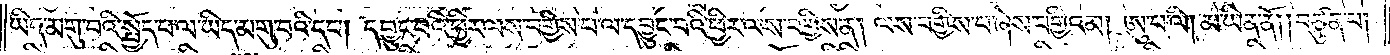ཡིད་མགུ་བའི་སྤྱོད་པ་ལ་ཡིད་མགུ་བའི་དང༌། དབྱུང་བའི་ཕྱིར་ལས་བགྱིས་པ་ལ་དབྱུང་བའི་ཕྱིར་ལས་བགྱིས་ན། ལས་བགྱིས་པ་ཞེས་བགྱིའམ། ཨུ་པ་ལི། མ་ཡིན་ནོ། །བཙུན་པ།
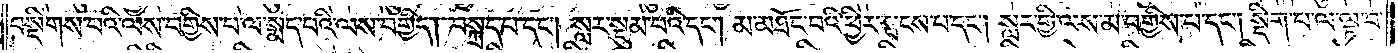བསྡིགས་པའི་ལས་བགྱིས་པ་ལ་སྨད་པའི་ལས་བགྱིད། བསྐྲད་པ་དང༌། སླར་སྡུམ་པའི་དང༌། མ་མཐོང་བའི་ཕྱིར་སྤངས་པ་དང༌། སླར་གྱི་ལས་མ་བགྱིས་པ་དང༌། སྡིག་པ་ལ་ལྟ་བ་
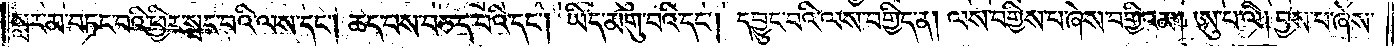སླར་མ་བཏང་བའི་ཕྱིར་སྤང་བའི་ལས་དང༌། ཆད་པས་བཅད་པའི་དང༌། ཡིད་མགུ་བའི་དང༌། དབྱུང་བའི་ལས་བགྱིད་ན། ལས་བགྱིས་པ་ཞེས་བགྱིའམ། ཨུ་པ་ལི། བྱས་པ་ཞེས་
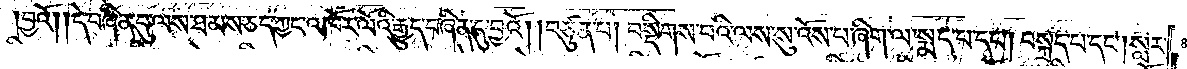བྱའོ། །དེ་བཞིན་དུ་ལས་ཐམས་ཅད་ཀྱང་འཁོར་ལོའི་རྒྱུད་བཞིན་དུ་བྱའོ། །བཙུན་པ། བསྡིགས་པའི་ལས་སུ་འོས་པ་ཞིག་ལ་སྨད་པ་དང༌། བསྐྲད་པ་དང༌། སླར་
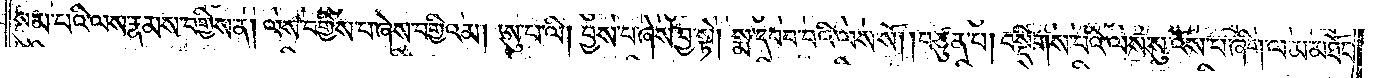སྡུམ་པའི་ལས་རྣམས་བགྱིས་ན། ལས་བགྱིས་པ་ཞེས་བགྱིའམ། ཨུ་པ་ལི། བྱས་པ་ཞེས་བྱ་སྟེ། སྨ་དབབ་བའི་ལས་སོ། །བཙུན་པ། བསྡིགས་པའི་ལས་སུ་འོས་པ་ཞིག་ལ་མ་མཐོང་
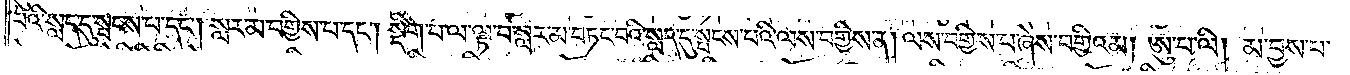པའི་སླད་དུ་སྤངས་པ་དང༌། སླར་མ་བགྱིས་པ་དང༌། སྡིག་པ་ལ་ལྟ་བ་སླར་མ་བཏང་བའི་སླད་དུ་སྤངས་པའི་ལས་བགྱིས་ན། ལས་བགྱིས་པ་ཞེས་བགྱིའམ། ཨུ་པ་ལི། མ་བྱས་པ་
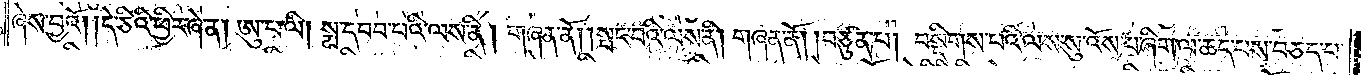ཞེས་བྱའོ། །དེ་ཅིའི་ཕྱིར་ཞེ་ན། ཨུ་པ་ལི། སྨ་དབབ་པའི་ལས་ནི། གཞན་ནོ། །སྤང་བའི་ལས་ནི། གཞན་ནོ། །བཙུན་པ། བསྡིགས་པའི་ལས་སུ་འོས་པ་ཞིག་ལ་ཆད་པས་བཅད་པ་
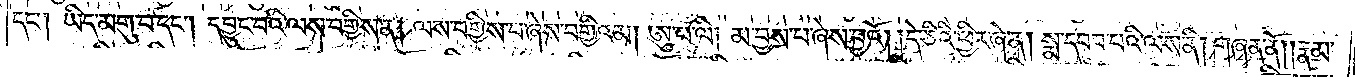དང༌། ཡིད་མགུ་བ་དང༌། དབྱུང་བའི་ལས་བགྱིས་ན། ལས་བགྱིས་པ་ཞེས་བགྱིའམ། ཨུ་པ་ལི། མ་བྱས་པ་ཞེས་བྱའོ། །དེ་ཅིའི་ཕྱིར་ཞེ་ན། སྨ་དབབ་པའི་ལས་ནི། གཞན་ནོ། །རྣམ་
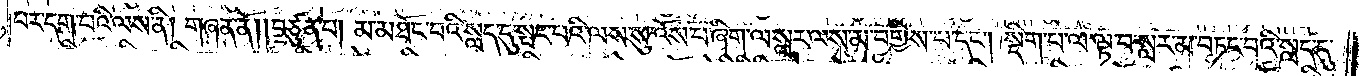པར་དག་པའི་ལས་ནི། གཞན་ནོ། །བཙུན་པ། མ་མཐོང་བའི་སླད་དུ་སྤང་བའི་ལས་སུ་འོས་པ་ཞིག་ལ་སླར་ལས་མ་བགྱིས་པ་དང༌། སྡིག་པ་ལ་ལྟ་བ་སླར་མ་བཏང་བའི་སླད་དུ་
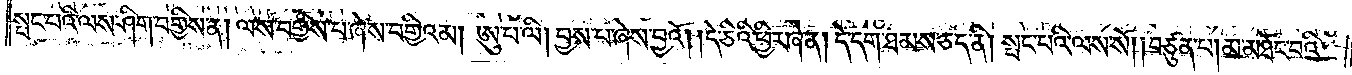སྤང་པའི་ལས་ཤིག་བགྱིས་ན། ལས་བགྱིས་པ་ཞེས་བགྱིའམ། ཨུ་པ་ལི། བྱས་པ་ཞེས་བྱའོ། །དེ་ཅིའི་ཕྱིར་ཞེ་ན། དེ་དག་ཐམས་ཅད་ནི། སྤང་པའི་ལས་སོ། །བཙུན་པ། མ་མཐོང་བའི་
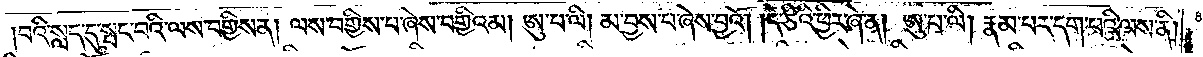བའི་སླད་དུ་སྤང་བའི་ལས་བགྱིས་ན། ལས་བགྱིས་པ་ཞེས་བགྱིའམ། ཨུ་པ་ལི། མ་བྱས་པ་ཞེས་བྱའོ། །དེ་ཅིའི་ཕྱིར་ཞེ་ན། ཨུ་པ་ལི། རྣམ་པར་དག་པའི་ལས་ནི།
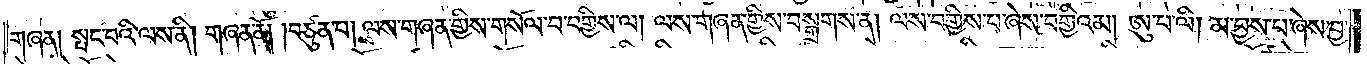གཞན། སྤང་བའི་ལས་ནི། གཞན་ནོ། །བཙུན་པ། ལས་གཞན་གྱིས་གསོལ་བ་བགྱིས་ལ། ལས་གཞན་གྱིས་བསྒྲགས་ན། ལས་བགྱིས་པ་ཞེས་བགྱིའམ། ཨུ་པ་ལི། མ་བྱས་པ་ཞེས་བྱ་
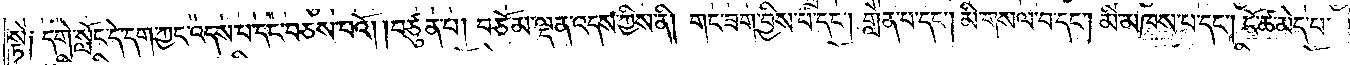སྟེ༑ དགེ་སློང་དེ་དག་ཀྱང་འདས་པ་དང་བཅས་པའོ། །བཙུན་པ། བཅོམ་ལྡན་འདས་ཀྱིས་ནི། གང་ཟག་བྱིས་པ་དང༌། གླེན་པ་དང༌། མི་གསལ་བ་དང༌། མི་མཁས་པ་དང༌། ངོ་ཚ་མེད་པ་
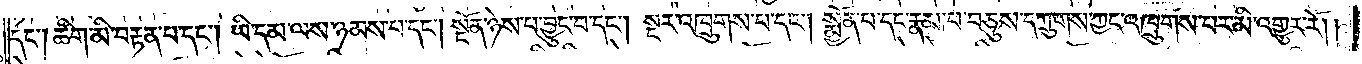དང༌། ཚིག་མི་བརྟན་པ་དང༌། ཡི་དམ་ལས་ཉམས་པ་དང༌། སྔོན་ཉེས་པ་བྱུང་བ་དང༌། སྔར་འཁྲུགས་པ་དང༌། སྨྱོན་པ་དང་རྣམ་པ་བཅུས་དཀྲུགས་ཀྱང་འཁྲུགས་པར་མི་འགྱུར་རོ། །
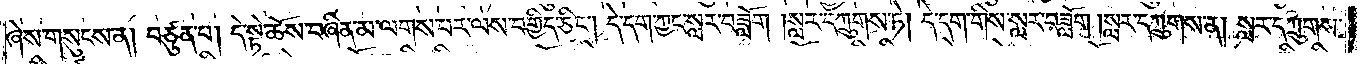ཞེས་གསུངས་ན། བཙུན་པ། དེ་སྟེ་ཆོས་བཞིན་མ་ལགས་པར་ལས་བགྱིད་ཅིང༌། དེ་དག་ཀྱང་སླར་བཟློག །སླར་དཀྲུགས་ཏེ། དེ་དག་གིས་སླར་བཟློག །སླར་དཀྲུགས་ན། སླར་དཀྲུགས་
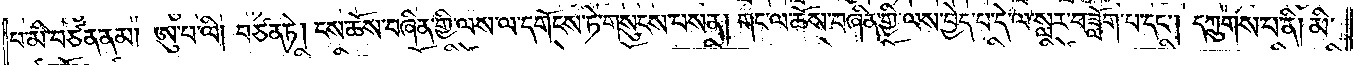པ་མི་བཙན་ནམ། ཨུ་པ་ལི། བཙན་ཏེ། ངས་ཆོས་བཞིན་གྱི་ལས་ལ་དགོངས་ཏེ་གསུངས་པས་ན། གང་ལ་ཆོས་བཞིན་གྱི་ལས་བྱེད་པ་དེ་ལ་སླར་བཟློག་པ་དང༌། དཀྲུགས་པ་ནི། མི་
